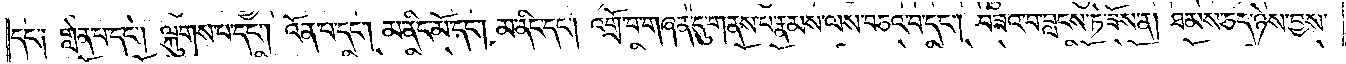དང་༑ གླེན་པ་དང༌། ལྐུགས་པ་དང༌། འོན་པ་དང༌། མ་ནིང་མོ་དང༌། མ་ནིང་དང༌། འགྲོ་བ་གཞན་དུ་གནས་པ་རྣམས་ལས་བཅའ་བ་དང༌། བཟའ་བ་བླངས་ཏེ་ཟོས་ན། ཐམས་ཅད་ཉེས་བྱས་
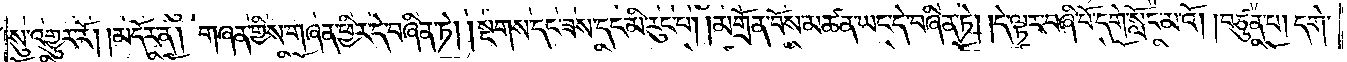སུ་འགྱུར་རོ། །མདོར་ན། གཞན་གྱིས་གཞན་ཕྱིར་དེ་བཞིན་ཏེ། །སྔགས་དང་ཟས་དང་མི་རུང་པ། །མགྲོན་པོས་མཚན་ཡང་དེ་བཞིན་ཏེ། །དེ་ལྟར་བཞི་པོ་དགེ་སློང་མའོ། །བཙུན་པ། དགེ་
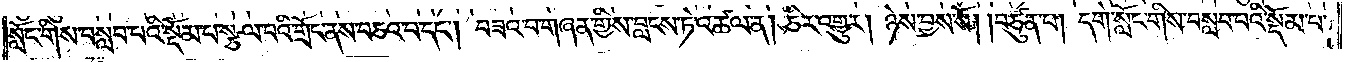སློང་གིས་བསླབ་པའི་སྡོམ་པ་སྩལ་པའི་གྲོང་ནས་བཅའ་བ་དང༌། བཟའ་བ་གཞན་གྱིས་བླངས་ཏེ་འཚལ་ན། ཅིར་འགྱུར། ཉེས་བྱས་སོ། །བཙུན་པ། དགེ་སློང་གིས་བསླབ་པའི་སྡོམ་པ་
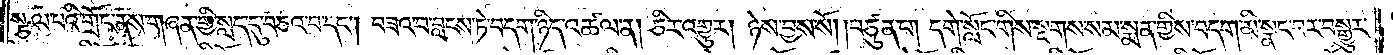སྩལ་པའི་གྲོང་ནས་གཞན་གྱི་སླད་དུ་བཅའ་བ་དང༌། བཟའ་བ་བླངས་ཏེ་བདག་ཉིད་འཚལ་ན། ཅིར་འགྱུར། ཉེས་བྱས་སོ། །བཙུན་པ། དགེ་སློང་གིས་སྔགས་སམ་སྨན་གྱིས་བདག་མི་སྣང་བར་བསྒྱུར་
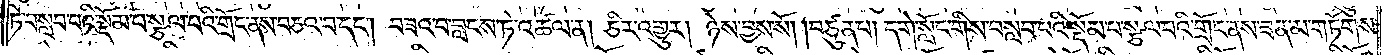ཏེ་བསླབ་པའི་སྡོམ་པ་སྩལ་པའི་གྲོང་ནས་བཅའ་བ་དང༌། བཟའ་བ་བླངས་ཏེ་འཚལ་ན། ཅིར་འགྱུར། ཉེས་བྱས་སོ། །བཙུན་པ། དགེ་སློང་གིས་བསླབ་པའི་སྡོམ་པ་སྩལ་པའི་གྲོང་ནས་ཟན་མ་གཏོགས་
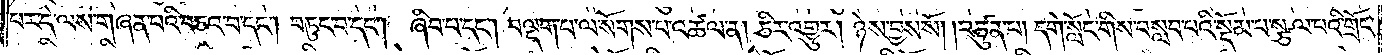པར་དེ་ལས་གཞན་པའི་བཅའ་བ་དང༌། བཏུང་བ་དང༌། ཞིབ་པ་དང༌། བལྡག་པ་ལ་སོགས་པ་འཚལ་ན། ཅིར་འགྱུར། ཉེས་བྱས་སོ། །བཙུན་པ། དགེ་སློང་གིས་བསླབ་པའི་སྡོམ་པ་སྩལ་པའི་གྲོང་
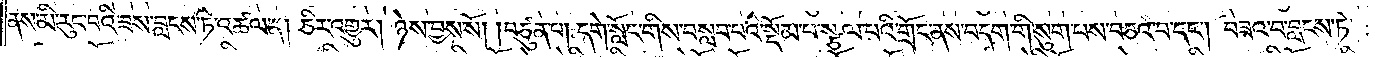ནས་མི་རུང་བའི་ཟས་བླངས་ཏེ་འཚལ་ན། ཅིར་འགྱུར། ཉེས་བྱས་སོ། །བཙུན་པ། དགེ་སློང་གིས་བསླབ་པའི་སྡོམ་པ་སྩལ་པའི་གྲོང་ནས་བདག་གི་སུག་པས་བཅའ་བ་དང༌། བཟའ་བ་བླངས་ཏེ་
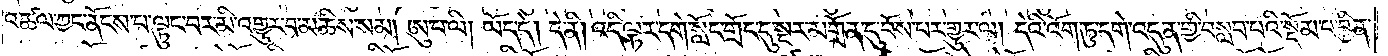འཚལ་ཀྱང་ནོངས་པ་ལྟུང་བར་མི་འགྱུར་བ་མཆིས་སམ། ཨུ་པ་ལི། ཡོད་དེ། དེ་ནི། འདི་ལྟར་དགེ་སློང་གྲོང་དུ་སྔར་མགྲོན་དུ་བོས་པར་གྱུར་ལ། དེའི་འོག་ཏུ་དགེ་འདུན་གྱི་བསླབ་པའི་སྡོམ་པ་བྱིན་
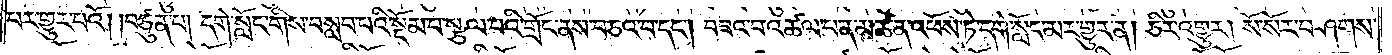པར་འགྱུར་པའོ། །བཙུན་པ། དགེ་སློང་གིས་བསླབ་པའི་སྡོམ་པ་སྩལ་པའི་གྲོང་ནས་བཅའ་བ་དང༌། བཟའ་བ་འཚལ་པ་ན་མཚན་འཕོས་ཏེ་དགེ་སློང་མར་གྱུར་ན། ཅིར་འགྱུར། སོ་སོར་བཤགས་
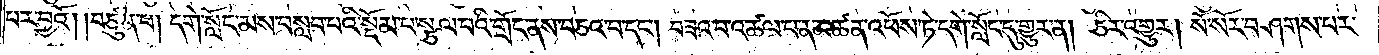པར་བྱའོ། །བཙུན་པ། དགེ་སློང་མས་བསླབ་པའི་སྡོམ་པ་སྩལ་པའི་གྲོང་ནས་བཅའ་བ་དང༌། བཟའ་བ་འཚལ་པ་ན་མཚན་འཕོས་ཏེ་དགེ་སློང་དུ་གྱུར་ན། ཅིར་འགྱུར། སོ་སོར་བཤགས་པར་
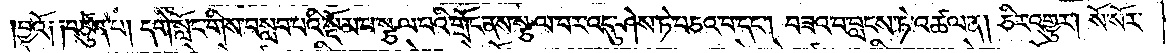བྱའོ༑ ༑བཙུན་པ། དགེ་སློང་གིས་བསླབ་པའི་སྡོམ་པ་སྩལ་པའི་གྲོང་ནས་སྩལ་བར་འདུ་ཤེས་ཏེ་བཅའ་བ་དང༌། བཟའ་བ་བླངས་ཏེ་འཚལ་ན། ཅིར་འགྱུར། སོ་སོར་
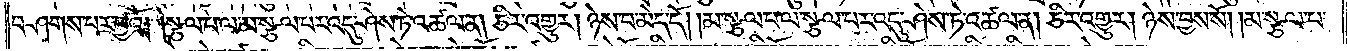བཤགས་པར་བྱའོ། །སྩལ་པ་ལ་མ་སྩལ་པར་འདུ་ཤེས་ཏེ་འཚལ་ན། ཅིར་འགྱུར། ཉེས་པ་མེད་དོ། །མ་སྩལ་པ་ལ་སྩལ་པར་འདུ་ཤེས་ཏེ་འཚལ་ན། ཅིར་འགྱུར། ཉེས་བྱས་སོ། །མ་སྩལ་པ་
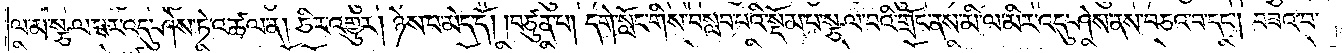ལ་མ་སྩལ་པར་འདུ་ཤེས་ཏེ་འཚལ་ན། ཅིར་འགྱུར། ཉེས་པ་མེད་དོ། །བཙུན་པ། དགེ་སློང་གིས་བསླབ་པའི་སྡོམ་པ་སྩལ་བའི་གྲོང་ནས་མི་ལ་མིར་འདུ་ཤེས་ནས་བཅའ་བ་དང༌། བཟའ་བ་
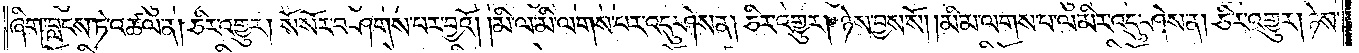ཞིག་བླངས་ཏེ་འཚལ་ན། ཅིར་འགྱུར། སོ་སོར་བཤགས་པར་བྱའོ། །མི་ལ་མི་ལགས་པར་འདུ་ཤེས་ན། ཅིར་འགྱུར། ཉེས་བྱས་སོ། །མི་མ་ལགས་པ་ལ་མིར་འདུ་ཤེས་ན། ཅིར་འགྱུར། ཉེས་
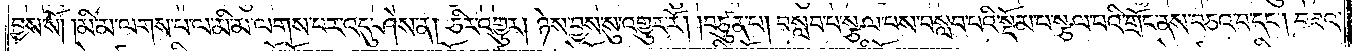བྱས་སོ། །མི་མ་ལགས་པ་ལ་མི་མ་ལགས་པར་འདུ་ཤེས་ན། ཅིར་འགྱུར། ཉེས་བྱས་སུ་འགྱུར་རོ། །བཙུན་པ། བསླབ་པ་སྩལ་པས་བསླབ་པའི་སྡོམ་པ་སྩལ་པའི་གྲོང་ནས་བཅའ་བ་དང༌། བཟའ་
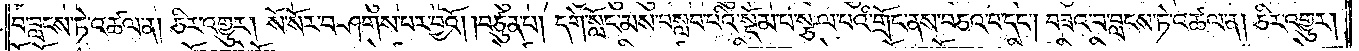བ་བླངས་ཏེ་འཚལ་ན། ཅིར་འགྱུར། སོ་སོར་བཤགས་པར་བྱའོ། །བཙུན་པ། དགེ་སློང་མས་བསླབ་པའི་སྡོམ་པ་སྩལ་པའི་གྲོང་ནས་བཅའ་བ་དང༌། བཟའ་བ་བླངས་ཏེ་འཚལ་ན། ཅིར་འགྱུར།
